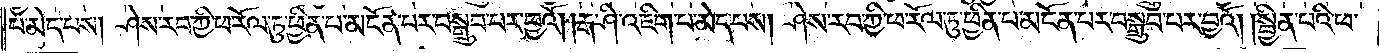པ་མེད་པས། ཤེས་རབ་ཀྱི་ཕ་རོལ་ཏུ་ཕྱིན་པ་མངོན་པར་བསྒྲུབ་པར་བྱའོ། །རྒ་ཤི་འཇིག་པ་མེད་པས། ཤེས་རབ་ཀྱི་ཕ་རོལ་ཏུ་ཕྱིན་པ་མངོན་པར་བསྒྲུབ་པར་བྱའོ། །སྦྱིན་པའི་ཕ་
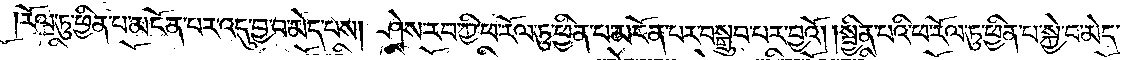རོལ་ཏུ་ཕྱིན་པ་མངོན་པར་འདུ་བྱ་བ་མེད་པས། ཤེས་རབ་ཀྱི་ཕ་རོལ་ཏུ་ཕྱིན་པ་མངོན་པར་བསྒྲུབ་པར་བྱའོ། །སྦྱིན་པའི་ཕ་རོལ་ཏུ་ཕྱིན་པ་སྐྱེ་བ་མེད་
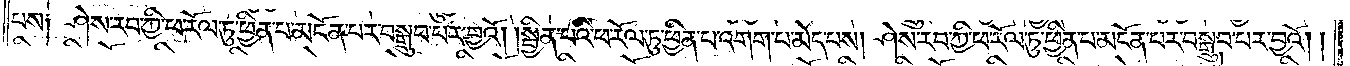པས༑ ཤེས་རབ་ཀྱི་ཕ་རོལ་ཏུ་ཕྱིན་པ་མངོན་པར་བསྒྲུབ་པར་བྱའོ། །སྦྱིན་པའི་ཕ་རོལ་ཏུ་ཕྱིན་པ་འགག་པ་མེད་པས། ཤེས་རབ་ཀྱི་ཕ་རོལ་ཏུ་ཕྱིན་པ་མངོན་པར་བསྒྲུབ་པར་བྱའོ། །
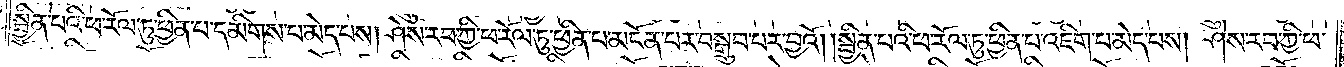སྦྱིན་པའི་ཕ་རོལ་ཏུ་ཕྱིན་པ་དམིགས་པ་མེད་པས། ཤེས་རབ་ཀྱི་ཕ་རོལ་ཏུ་ཕྱིན་པ་མངོན་པར་བསྒྲུབ་པར་བྱའོ། །སྦྱིན་པའི་ཕ་རོལ་ཏུ་ཕྱིན་པ་འཇིག་པ་མེད་པས། ཤེས་རབ་ཀྱི་ཕ་
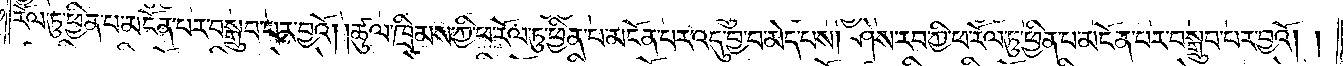རོལ་ཏུ་ཕྱིན་པ་མངོན་པར་བསྒྲུབ་པར་བྱའོ། །ཚུལ་ཁྲིམས་ཀྱི་ཕ་རོལ་ཏུ་ཕྱིན་པ་མངོན་པར་འདུ་བྱ་བ་མེད་པས། ཤེས་རབ་ཀྱི་ཕ་རོལ་ཏུ་ཕྱིན་པ་མངོན་པར་བསྒྲུབ་པར་བྱའོ། །
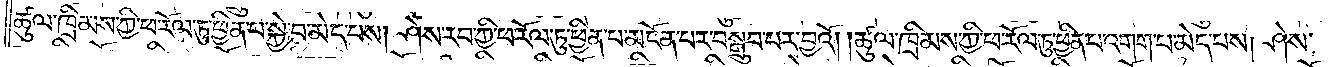ཚུལ་ཁྲིམས་ཀྱི་ཕ་རོལ་ཏུ་ཕྱིན་པ་སྐྱེ་བ་མེད་པས། ཤེས་རབ་ཀྱི་ཕ་རོལ་ཏུ་ཕྱིན་པ་མངོན་པར་བསྒྲུབ་པར་བྱའོ། །ཚུལ་ཁྲིམས་ཀྱི་ཕ་རོལ་ཏུ་ཕྱིན་པ་འགག་པ་མེད་པས། ཤེས་
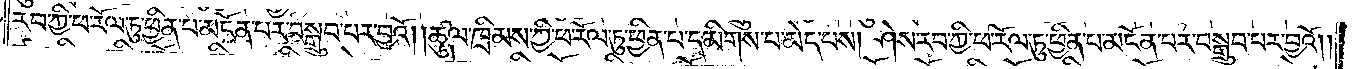རབ་ཀྱི་ཕ་རོལ་ཏུ་ཕྱིན་པ་མངོན་པར་བསྒྲུབ་པར་བྱའོ། །ཚུལ་ཁྲིམས་ཀྱི་ཕ་རོལ་ཏུ་ཕྱིན་པ་དམིགས་པ་མེད་པས། ཤེས་རབ་ཀྱི་ཕ་རོལ་ཏུ་ཕྱིན་པ་མངོན་པར་བསྒྲུབ་པར་བྱའོ། །
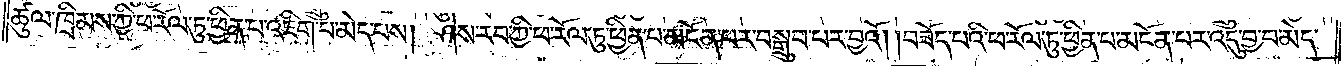ཚུལ་ཁྲིམས་ཀྱི་ཕ་རོལ་ཏུ་ཕྱིན་པ་འཇིག་པ་མེད་པས། ཤེས་རབ་ཀྱི་ཕ་རོལ་ཏུ་ཕྱིན་པ་མངོན་པར་བསྒྲུབ་པར་བྱའོ། །བཟོད་པའི་ཕ་རོལ་ཏུ་ཕྱིན་པ་མངོན་པར་འདུ་བྱ་བ་མེད་
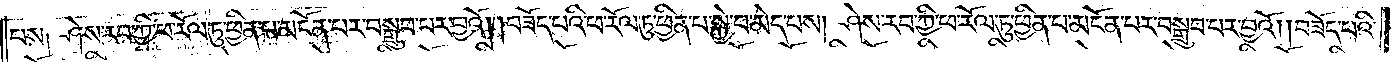པས༑ ཤེས་རབ་ཀྱི་ཕ་རོལ་ཏུ་ཕྱིན་པ་མངོན་པར་བསྒྲུབ་པར་བྱའོ། །བཟོད་པའི་ཕ་རོལ་ཏུ་ཕྱིན་པ་སྐྱེ་བ་མེད་པས། ཤེས་རབ་ཀྱི་ཕ་རོལ་ཏུ་ཕྱིན་པ་མངོན་པར་བསྒྲུབ་པར་བྱའོ། །བཟོད་པའི་
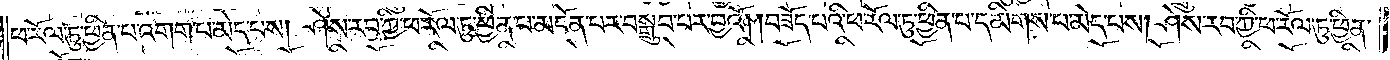ཕ་རོལ་ཏུ་ཕྱིན་པ་འགག་པ་མེད་པས། ཤེས་རབ་ཀྱི་ཕ་རོལ་ཏུ་ཕྱིན་པ་མངོན་པར་བསྒྲུབ་པར་བྱའོ། །བཟོད་པའི་ཕ་རོལ་ཏུ་ཕྱིན་པ་དམིགས་པ་མེད་པས། ཤེས་རབ་ཀྱི་ཕ་རོལ་ཏུ་ཕྱིན་
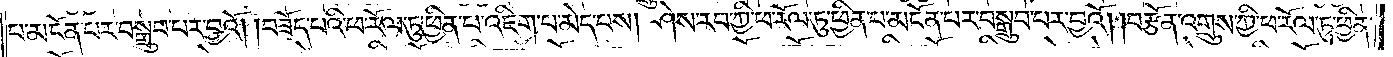པ་མངོན་པར་བསྒྲུབ་པར་བྱའོ། །བཟོད་པའི་ཕ་རོལ་ཏུ་ཕྱིན་པ་འཇིག་པ་མེད་པས། ཤེས་རབ་ཀྱི་ཕ་རོལ་ཏུ་ཕྱིན་པ་མངོན་པར་བསྒྲུབ་པར་བྱའོ། །བརྩོན་འགྲུས་ཀྱི་ཕ་རོལ་ཏུ་ཕྱིན་
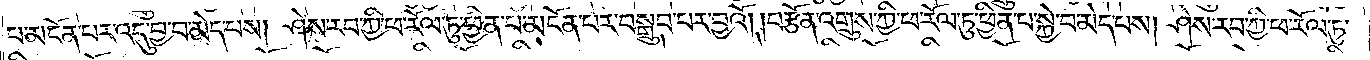པ་མངོན་པར་འདུ་བྱ་བ་མེད་པས། ཤེས་རབ་ཀྱི་ཕ་རོལ་ཏུ་ཕྱིན་པ་མངོན་པར་བསྒྲུབ་པར་བྱའོ། །བརྩོན་འགྲུས་ཀྱི་ཕ་རོལ་ཏུ་ཕྱིན་པ་སྐྱེ་བ་མེད་པས། ཤེས་རབ་ཀྱི་ཕ་རོལ་ཏུ་
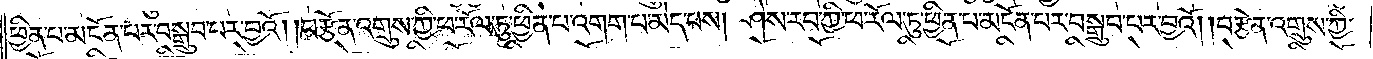ཕྱིན་པ་མངོན་པར་བསྒྲུབ་པར་བྱའོ། །བརྩོན་འགྲུས་ཀྱི་ཕ་རོལ་ཏུ་ཕྱིན་པ་འགག་པ་མེད་པས། ཤེས་རབ་ཀྱི་ཕ་རོལ་ཏུ་ཕྱིན་པ་མངོན་པར་བསྒྲུབ་པར་བྱའོ། །བརྩོན་འགྲུས་ཀྱི་
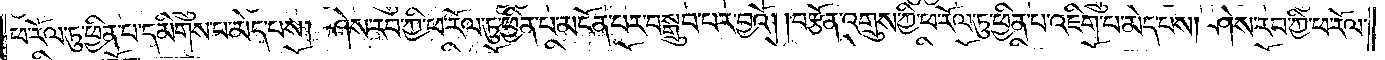ཕ་རོལ་ཏུ་ཕྱིན་པ་དམིགས་པ་མེད་པས། ཤེས་རབ་ཀྱི་ཕ་རོལ་ཏུ་ཕྱིན་པ་མངོན་པར་བསྒྲུབ་པར་བྱའོ། །བརྩོན་འགྲུས་ཀྱི་ཕ་རོལ་ཏུ་ཕྱིན་པ་འཇིག་པ་མེད་པས། ཤེས་རབ་ཀྱི་ཕ་རོལ་
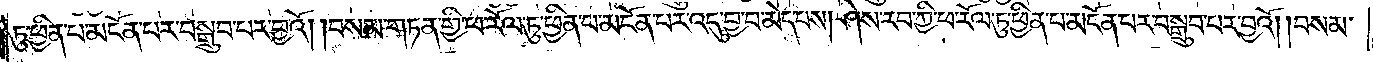ཏུ་ཕྱིན་པ་མངོན་པར་བསྒྲུབ་པར་བྱའོ། །བསམ་གཏན་གྱི་ཕ་རོལ་ཏུ་ཕྱིན་པ་མངོན་པར་འདུ་བྱ་བ་མེད་པས། ཤེས་རབ་ཀྱི་ཕ་རོལ་ཏུ་ཕྱིན་པ་མངོན་པར་བསྒྲུབ་པར་བྱའོ། །བསམ་
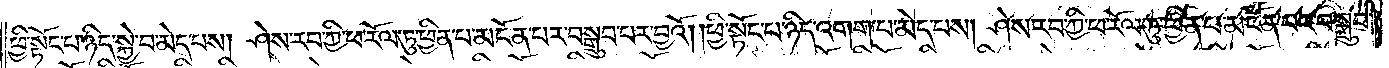ཕྱི་སྟོང་པ་ཉིད་སྐྱེ་བ་མེད་པས། ཤེས་རབ་ཀྱི་ཕ་རོལ་ཏུ་ཕྱིན་པ་མངོན་པར་བསྒྲུབ་པར་བྱའོ། །ཕྱི་སྟོང་པ་ཉིད་འགག་པ་མེད་པས། ཤེས་རབ་ཀྱི་ཕ་རོལ་ཏུ་ཕྱིན་པ་མངོན་པར་བསྒྲུབ་
